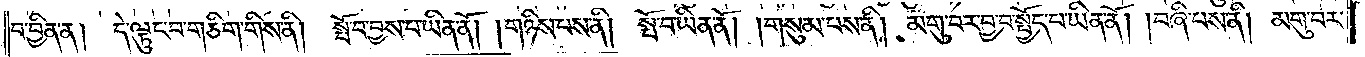བ་བྱིན་ན། དེ་ལྟུང་བ་གཅིག་གིས་ནི། སྤོ་བ་བྱས་པ་ཡིན་ནོ། །གཉིས་པས་ནི། སྤོ་བ་ཡིན་ནོ། །གསུམ་པས་ནི། མགུ་བར་བྱ་བ་སྤྱོད་པ་ཡིན་ནོ། །བཞི་པས་ནི། མགུ་བར་
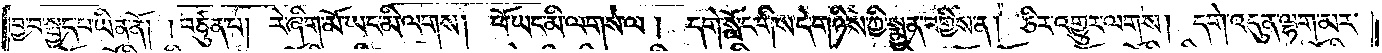བྱ་བ་སྤྱད་པ་ཡིན་ནོ། །བཙུན་པ། རེ་ཞིག་མོ་ཡང་མི་ལགས། ཕོ་ཡང་མི་ལགས་ལ། དགེ་སློང་གིས་དེ་གཉིས་ཀྱི་སྨྱན་བགྱིས་ན། ཅིར་འགྱུར་ལགས། དགེ་འདུན་ལྷག་མར་
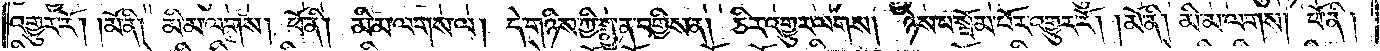འགྱུར་རོ། །མོ་ནི། མི་མ་ལགས། ཕོ་ནི། མི་མ་ལགས་ལ། དེ་གཉིས་ཀྱི་སྨྱན་བགྱིས་ན། ཅིར་འགྱུར་ལགས། ཉེས་པ་སྦོམ་པོར་འགྱུར་རོ། །མོ་ནི། མི་མ་ལགས། ཕོ་ནི།
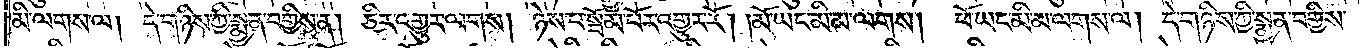མི་ལགས་ལ། དེ་གཉིས་ཀྱི་སྨྱན་བགྱིས་ན། ཅིར་འགྱུར་ལགས། ཉེས་པ་སྦོམ་པོར་འགྱུར་རོ། །མོ་ཡང་མི་མ་ལགས། ཕོ་ཡང་མི་མ་ལགས་ལ། དེ་གཉིས་ཀྱི་སྨྱན་བགྱིས་
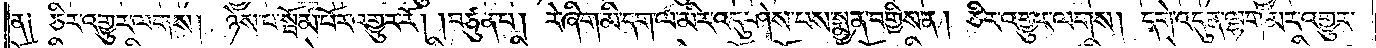ན༑ ཅིར་འགྱུར་ལགས། ཉེས་པ་སྦོམ་པོར་འགྱུར་རོ། །བཙུན་པ། རེ་ཞིག་མི་དག་ལ་མིར་འདུ་ཤེས་པས་སྨྱན་བགྱིས་ན། ཅིར་འགྱུར་ལགས། དགེ་འདུན་ལྷག་མར་འགྱུར་
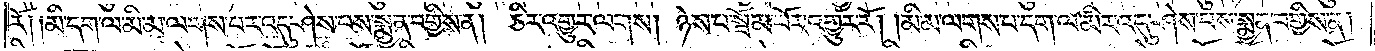རོ༑ ༑མི་དག་ལ་མི་མ་ལགས་པར་འདུ་ཤེས་པས་སྨྱན་བགྱིས་ན། ཅིར་འགྱུར་ལགས། ཉེས་པ་སྦོམ་པོར་འགྱུར་རོ། །མི་མ་ལགས་པ་དག་ལ་མིར་འདུ་ཤེས་པས་སྨྱན་བགྱིས་ན།
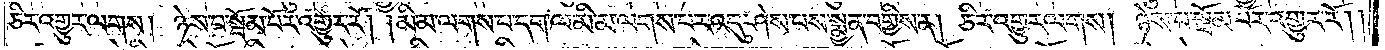ཅིར་འགྱུར་ལགས། ཉེས་པ་སྦོམ་པོར་འགྱུར་རོ། །མི་མ་ལགས་པ་དག་ལ་མི་མ་ལགས་པར་འདུ་ཤེས་པས་སྨྱན་བགྱིས་ན། ཅིར་འགྱུར་ལགས། ཉེས་པ་སྦོམ་པོར་འགྱུར་རོ། །
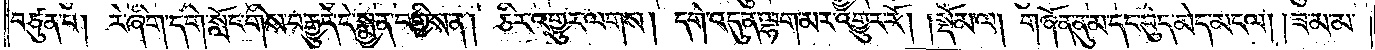བཙུན་པ། རེ་ཞིག་དགེ་སློང་གིས་བརྒྱུད་དེ་སྨྱན་བགྱིས་ན། ཅིར་འགྱུར་ལགས། དགེ་འདུན་ལྷག་མར་འགྱུར་རོ། །སྡོམ་ལ། གཞོན་ནུ་མ་དང་བུད་མེད་མངལ། །ཟ་མ་མ་
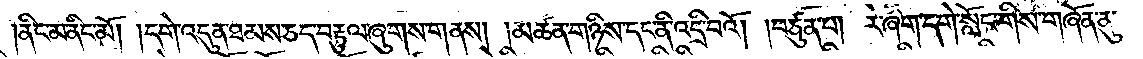།ནིང་མ་ནིང་མོ། །དགེ་འདུན་ཐམས་ཅད་བརྟུལ་ཞུགས་གནས། །མཚན་གཉིས་དང་ནི་འདྲི་བའོ། །བཙུན་པ། རེ་ཞིག་དགེ་སློང་གིས་གཞོན་ནུ་
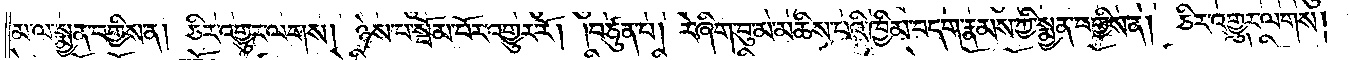མ་ལ་སྨྱན་བགྱིས་ན། ཅིར་འགྱུར་ལགས། ཉེས་པ་སྦོམ་པོར་འགྱུར་རོ། །བཙུན་པ། རེ་ཞིག་བུ་མ་མཆིས་པའི་ཁྱིམ་བདག་རྣམས་ཀྱི་སྨྱན་བགྱིས་ན། ཅིར་འགྱུར་ལགས།
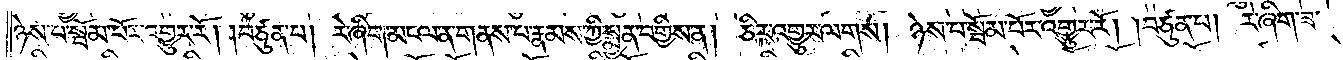ཉེས་པ་སྦོམ་པོར་འགྱུར་རོ། །བཙུན་པ། རེ་ཞིག་མངལ་ན་གནས་པ་རྣམས་ཀྱི་སྨྱན་བགྱིས་ན། ཅིར་འགྱུར་ལགས། ཉེས་པ་སྦོམ་པོར་འགྱུར་རོ། །བཙུན་པ། རེ་ཞིག་ཟ་
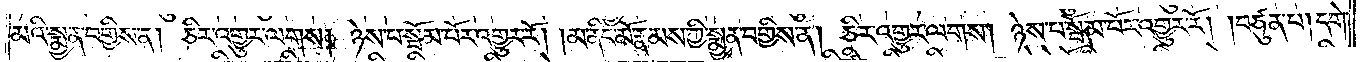མའི་སྨྱན་བགྱིས་ན། ཅིར་འགྱུར་ལགས། ཉེས་པ་སྦོམ་པོར་འགྱུར་རོ། །མ་ནིང་མོ་རྣམས་ཀྱི་སྨྱན་བགྱིས་ན། ཅིར་འགྱུར་ལགས། ཉེས་པ་སྦོམ་པོར་འགྱུར་རོ། །བཙུན་པ། དགེ་
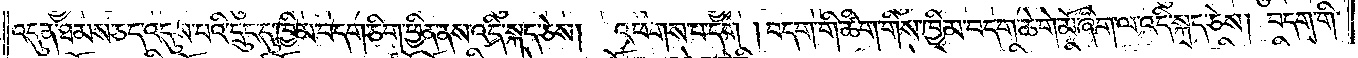འདུན་ཐམས་ཅད་འདུས་པའི་དྲུང་དུ་ཁྱིམ་བདག་ཅིག་ཕྱིན་ནས་འདི་སྐད་ཅེས། འཕགས་པ་དག །བདག་གི་ཚིག་གིས་ཁྱིམ་བདག་ཆེ་གེ་མོ་ཞིག་ལ་འདི་སྐད་ཅེས། བདག་གི་
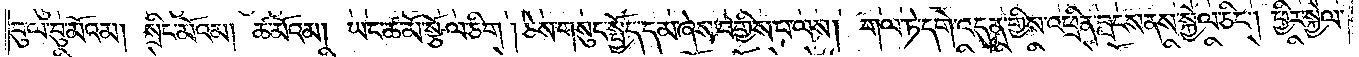བུ་ལ་བུ་མོའམ། སྲིང་མོའམ། ཚ་མོའམ། ཡང་ཚ་མོ་སྩོལ་ཅིག །ཅེས་གསུང་སྤྱོད་དམ་ཞེས་བགྱིས་པ་ལས། གལ་ཏེ་དགེ་འདུན་གྱིས་འཕྲིན་བླངས་ནས་སྐྱེལ་ཅིང༌། ཕྱིར་སྐྱེལ་
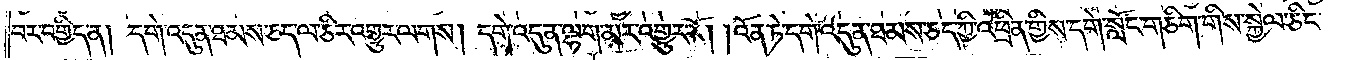བར་བགྱིད་ན། དགེ་འདུན་ཐམས་ཅད་ལ་ཅིར་འགྱུར་ལགས། དགེ་འདུན་ལྷག་མར་འགྱུར་རོ། །འོན་ཏེ་དགེ་འདུན་ཐམས་ཅད་ཀྱི་འཕྲིན་གྱིས་དགེ་སློང་གཅིག་གིས་སྐྱེལ་ཅིང་
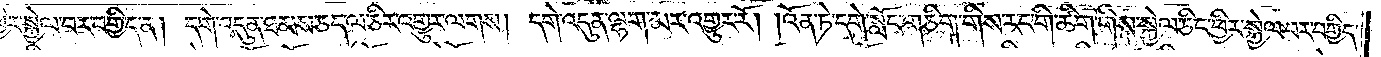ཕྱིར་སྐྱེལ་བར་བགྱིད་ན། དགེ་འདུན་ཐམས་ཅད་ལ་ཅིར་འགྱུར་ལགས། དགེ་འདུན་ལྷག་མར་འགྱུར་རོ། །འོན་ཏེ་དགེ་སློང་གཅིག་གིས་རང་གི་ཚིག་གིས་སྐྱེལ་ཅིང་ཕྱིར་སྐྱེལ་བར་བགྱིད་
